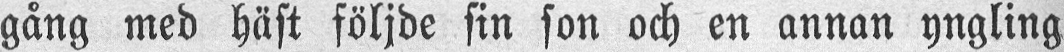gång med häst följde sin son och en annan yngling
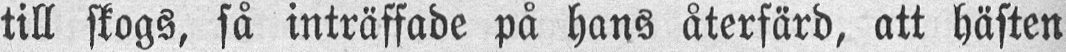till skogs, så inträffade på hans återfärd, att hästen
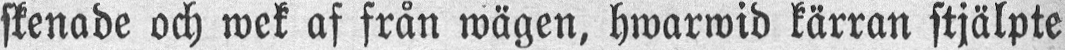skenade och wek af från wägen, hwarwid kärran stjälpte
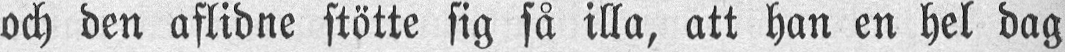och den aflidne stötte sig så illa, att hän en hel dag
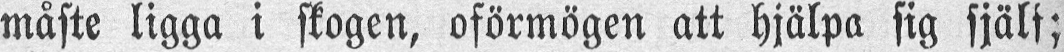måste ligga i skogen, oförmögen att hjälpa sig själf;
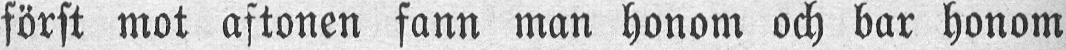först mot aftonen fann man honom och bar honom
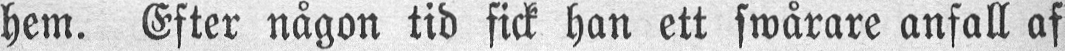hem. Efter någon tid fick han ett swårare anfall af
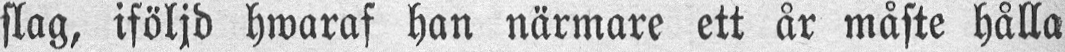slag, iföljd hwaraf han närmare ett år måste hålla
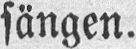sängen.
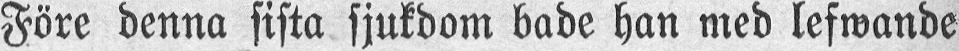Före denna sista sjukdom bade han med lefwande
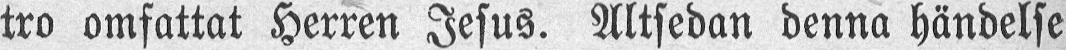tro omfattat Herren Jesus. Altsedan denna händelse
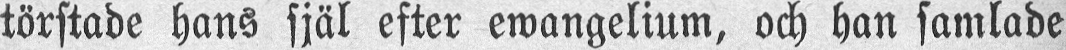törstade hans själ efter ewangelium, och han samlade
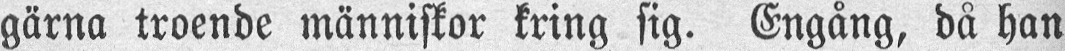gärna troende människor kring sig. Engång, då han
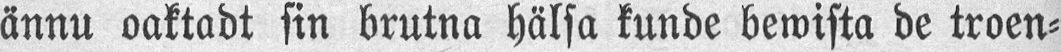ännu oaktadt sin brutna hälsa kunde bewista de troen-
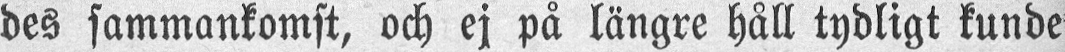des sammankomst, och ej på längre håll tydligt kunde
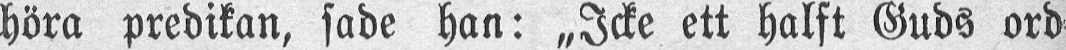höra predikan, sade hän: „Icke ett halft Guds ord
